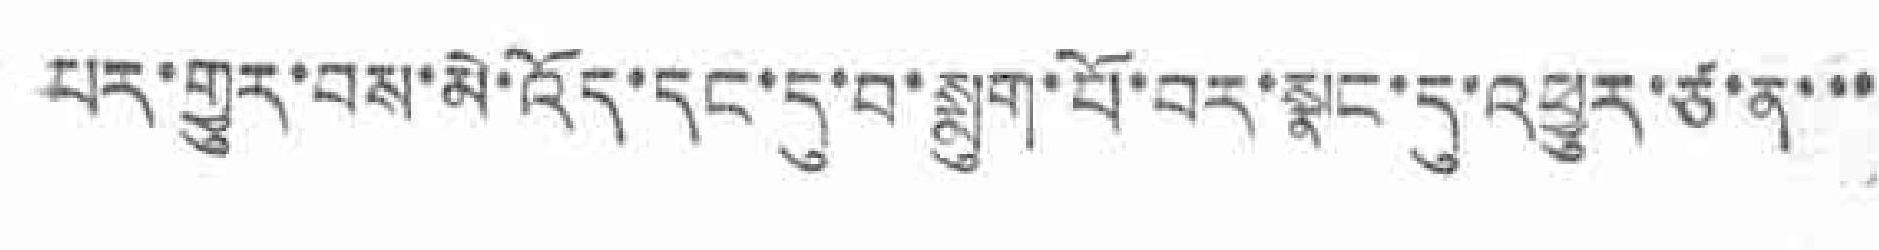པར་གྱུར་བས་མེ་འོད་དང་དུ་བ་སྨུག་པོ་བར་སྣང་དུ་འཕྱུར་ཙ་ན་་་
